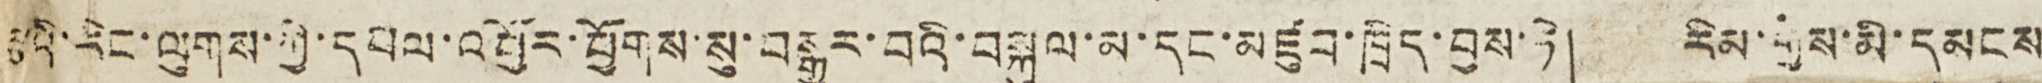རྩའི་རིང་ལུགས་ཀྱི་དཔལ་འབྱོར་ཕྱོགས་སུ་བསྒྱུར་བའི་བསྐུལ་མ་དང་མཛུབ་ཁྲིད་བྱས་ཏེ། རིམ་གྱིས་མི་དམངས་
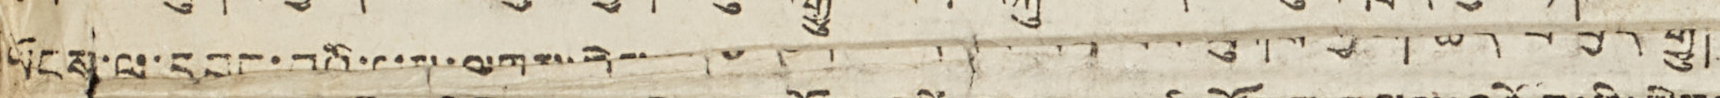ཡོངས་ལ་དབང་བའི་ལམ་ལུགས་ ལུགས་ཀྱི་ བྱེད་རྒྱུ།
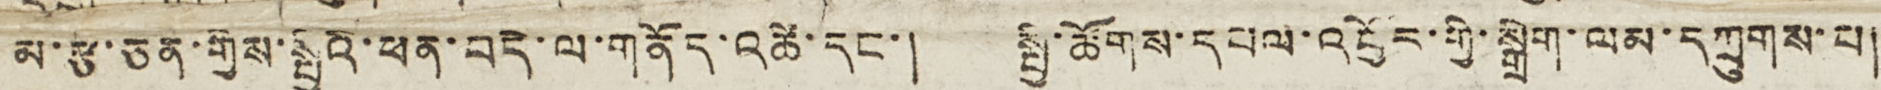མ་རྩ་ཅན་རྒྱས་སྤྱིའི་ཕན་བདེ་ལ་གནོད་འཚེ་དང་། སྤྱི་ཚོགས་དཔལ་འབྱོར་གྱི་སྒྲིག་ལམ་དཀྲུགས་པ།
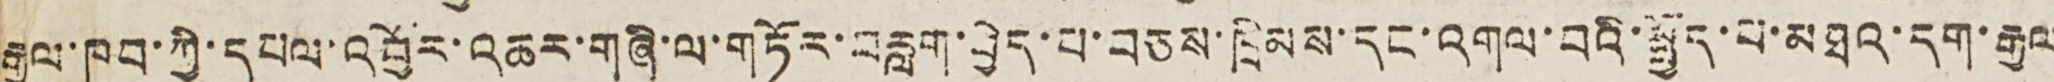རྒྱལ་ཁབ་ཀྱི་དཔལ་འབྱོར་འཆར་གཞི་ལ་གཏོར་བརླག་བྱེད་པ་བཅས་ཁྲིམས་དང་འགལ་བའི་སྤྱོད་པ་མཐའ་དག་རྒྱལ
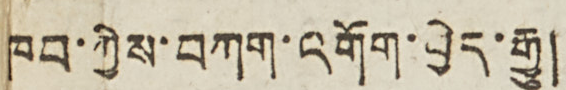ཁབ་ཀྱིས་བཀག་འགོག་བྱེད་རྒྱུ།
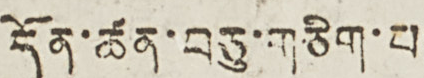དོན་ཚན་བཅུ་གཅིག་པ།
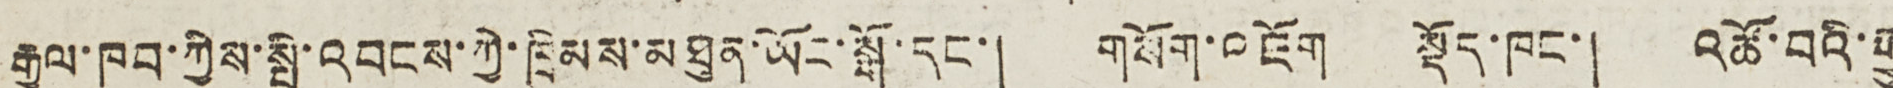རྒྱལ་ཁབ་ཀྱིས་སྤྱི་འབངས་ཀྱི་ཁྲིམས་མཐུན་ཡོང་སྒོ་དང་། གསོག་འཇོག སྡོད་ཁང་། འཚོ་བའི་རྒྱུ
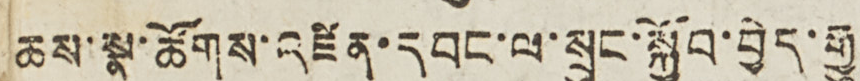ཆས་སྣ་ཚོགས་འཛིན་དབང་ལ་སྲུང་སྐྱོབ་བྱེད་རྒྱུ།
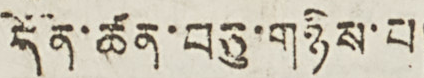དོན་ཚན་བཅུ་གཉིས་པ།
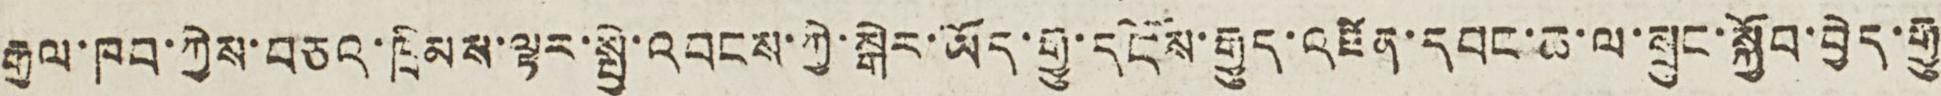རྒྱལ་ཁབ་ཀྱིས་བཅའ་ཁྲིམས་ལྟར་སྤྱི་འབངས་ཀྱི་སྒེར་ཡོད་རྒྱུ་དངོས་རྒྱུད་འཛིན་དབང་ཆ་ལ་སྲུང་སྐྱོབ་བྱེད་རྒྱུ།
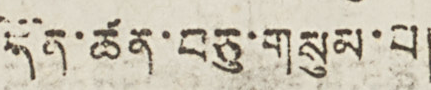དོན་ཚན་བཅུ་གསུམ་པ།
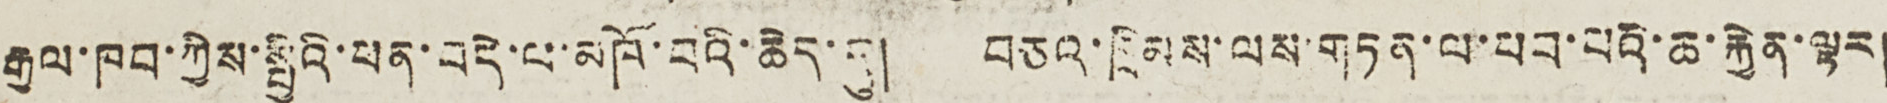རྒྱལ་ཁབ་ཀྱིས་སྤྱིའི་ཕན་བདེ་ལ་མཁོ་བའི་ཆེད་དུ། བཅའ་ཁྲིམས་ལས་གཏན་ལ་ཕབ་པའི་ཆ་རྐྱེན་ལྟར།
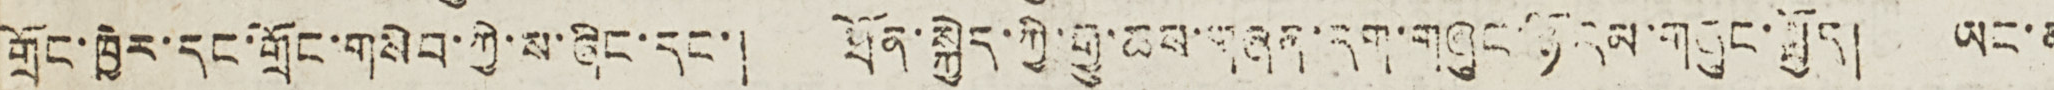གྲོང་ཁྱེར་དང་གྲོང་གསེབ་ཀྱི་ས་ཞིང་དང་། ཐོན་སྐྱེད་ཀྱི་རྒྱུ་ཆས་གཞན་དག་གཞུང་ཉོ་འམ་གཞུང་སྤྱོད། ཡང་ན
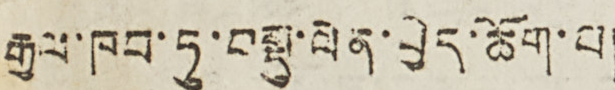རྒྱལ་ཁབ་ཏུ་བསྡུ་ལེན་བྱེད་ཆོག་པ།
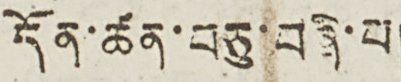དོན་ཚན་བཅུ་བཞི་པ།
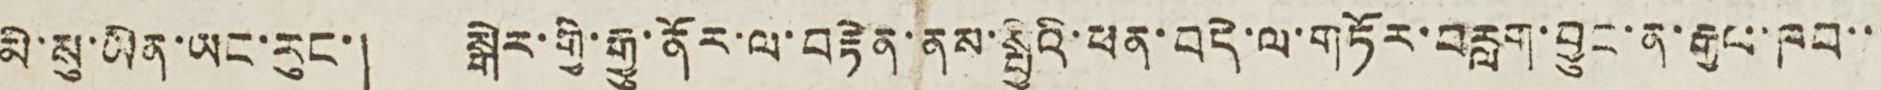མི་སུ་ཡིན་ཡང་རུང་། སྒེར་གྱི་རྒྱུ་ནོར་ལ་བརྟེན་ནས་སྤྱིའི་ཕན་བདེ་ལ་གཏོར་བརླག་བྱུང་ན་རྒྱལ་ཁབ་་་
